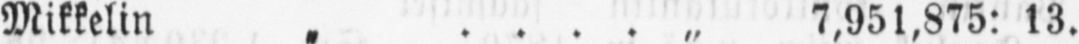Mikkelin „ „ 7,951,875: 13.
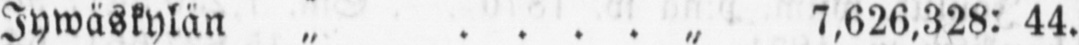Jywäskylän „ „ 7,626,328: 44.
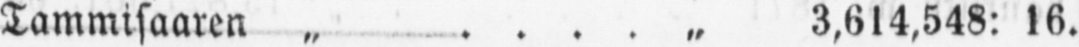Tammisaaren „ „ 3,614,548: 16.
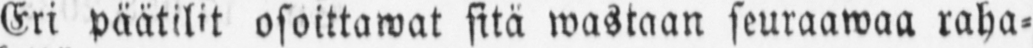Eri päätilit osoittawat sitä wastaan seuraawaa raha-
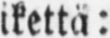liikettä:
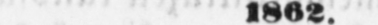1862.
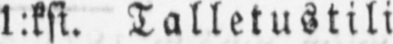1:ksi. Talletustili.
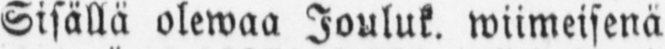Sisällä olewaa Jouluk. wiimeisenä
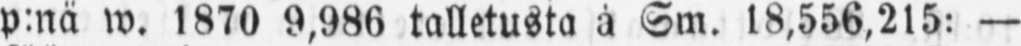p:nä w. 1870 9,986 talletusta à Sm. 18,556,215: —
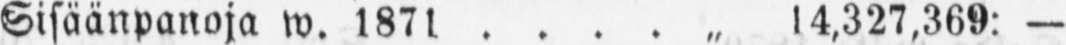Sisäänpanoja w. 1871 . . . . „ 14,327,369: —
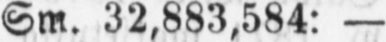Sm. 32,883,584: —
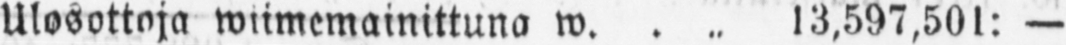Ulosottoja wiimemainittuna w. . „ 13,597,501: —
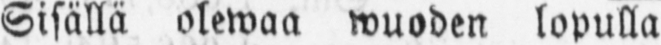Sisällä olewaa wuoden lopulla
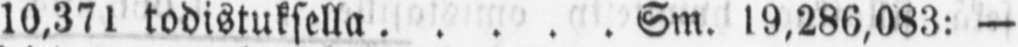10,371 todistuksella . . . . . Sm. 19,286,083: —
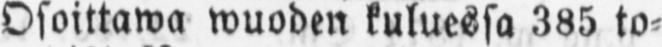Osoittawa wuoden kuluessa 385 to-
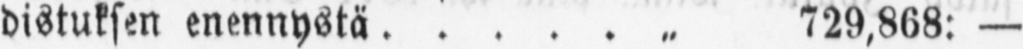distuksen enennystä . . . . . „ 729,868: —
